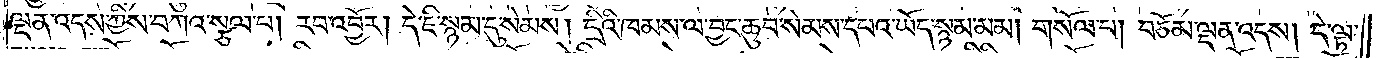ལྡན་འདས་ཀྱིས་བཀའ་སྩལ་པ། རབ་འབྱོར། དེ་ཇི་སྙམ་དུ་སེམས། དྲིའི་ཁམས་ལ་བྱང་ཆུབ་སེམས་དཔའ་ཡོད་སྙམ་མམ། གསོལ་པ། བཅོམ་ལྡན་འདས། དེ་ལྟ་
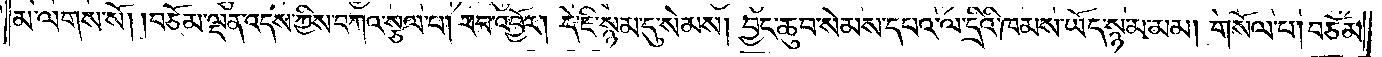མ་ལགས་སོ། །བཅོམ་ལྡན་འདས་ཀྱིས་བཀའ་སྩལ་པ། རབ་འབྱོར། དེ་ཇི་སྙམ་དུ་སེམས། བྱང་ཆུབ་སེམས་དཔའ་ལ་དྲིའི་ཁམས་ཡོད་སྙམ་མམ། གསོལ་པ། བཅོམ་
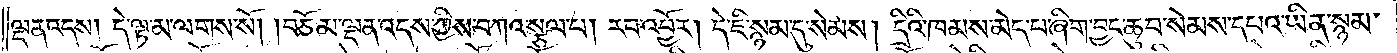ལྡན་འདས། དེ་ལྟ་མ་ལགས་སོ། །བཅོམ་ལྡན་འདས་ཀྱིས་བཀའ་སྩལ་པ། རབ་འབྱོར། དེ་ཇི་སྙམ་དུ་སེམས། དྲིའི་ཁམས་མེད་པ་ཞིག་བྱང་ཆུབ་སེམས་དཔའ་ཡིན་སྙམ་
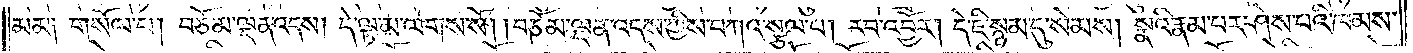མམ༑ གསོལ་པ། བཅོམ་ལྡན་འདས། དེ་ལྟ་མ་ལགས་སོ། །བཅོམ་ལྡན་འདས་ཀྱིས་བཀའ་སྩལ་པ། རབ་འབྱོར། དེ་ཇི་སྙམ་དུ་སེམས། སྣའི་རྣམ་པར་ཤེས་པའི་ཁམས་
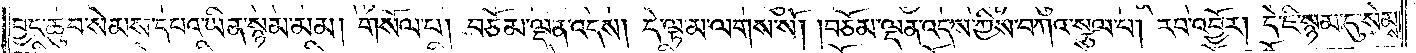བྱང་ཆུབ་སེམས་དཔའ་ཡིན་སྙམ་མམ། གསོལ་པ། བཅོམ་ལྡན་འདས། དེ་ལྟ་མ་ལགས་སོ། །བཅོམ་ལྡན་འདས་ཀྱིས་བཀའ་སྩལ་པ། རབ་འབྱོར། དེ་ཇི་སྙམ་དུ་སེམས་
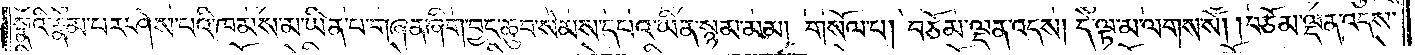སྣའི་རྣམ་པར་ཤེས་པའི་ཁམས་མ་ཡིན་པ་གཞན་ཞིག་བྱང་ཆུབ་སེམས་དཔའ་ཡིན་སྙམ་མམ། གསོལ་པ། བཅོམ་ལྡན་འདས། དེ་ལྟ་མ་ལགས་སོ། །བཅོམ་ལྡན་འདས་
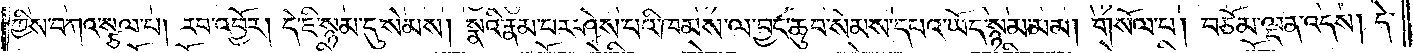ཀྱིས་བཀའ་སྩལ་པ། རབ་འབྱོར། དེ་ཇི་སྙམ་དུ་སེམས། སྣའི་རྣམ་པར་ཤེས་པའི་ཁམས་ལ་བྱང་ཆུབ་སེམས་དཔའ་ཡོད་སྙམ་མམ། གསོལ་པ། བཅོམ་ལྡན་འདས། དེ་
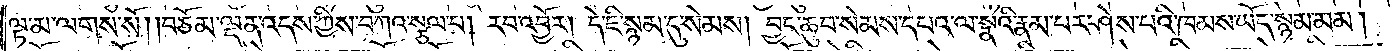ལྟ་མ་ལགས་སོ། །བཅོམ་ལྡན་འདས་ཀྱིས་བཀའ་སྩལ་པ། རབ་འབྱོར། དེ་ཇི་སྙམ་དུ་སེམས། བྱང་ཆུབ་སེམས་དཔའ་ལ་སྣའི་རྣམ་པར་ཤེས་པའི་ཁམས་ཡོད་སྙམ་མམ།
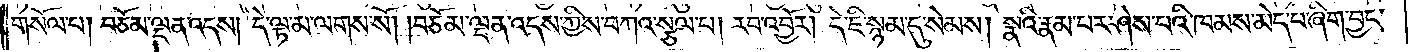གསོལ་པ། བཅོམ་ལྡན་འདས། དེ་ལྟ་མ་ལགས་སོ། །བཅོམ་ལྡན་འདས་ཀྱིས་བཀའ་སྩལ་པ། རབ་འབྱོར། དེ་ཇི་སྙམ་དུ་སེམས། སྣའི་རྣམ་པར་ཤེས་པའི་ཁམས་མེད་པ་ཞིག་བྱང་
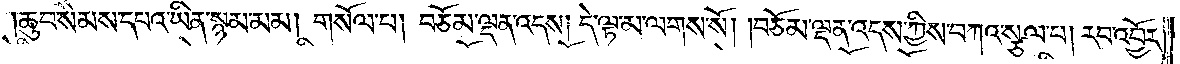ཆུབ་སེམས་དཔའ་ཡིན་སྙམ་མམ། གསོལ་པ། བཅོམ་ལྡན་འདས། དེ་ལྟ་མ་ལགས་སོ། །བཅོམ་ལྡན་འདས་ཀྱིས་བཀའ་སྩལ་པ། རབ་འབྱོར་
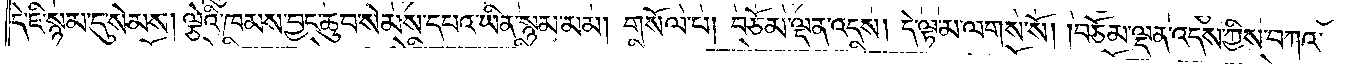དེ་ཇི་སྙམ་དུ་སེམས། ལྕེའི་ཁམས་བྱང་ཆུབ་སེམས་དཔའ་ཡིན་སྙམ་མམ། གསོལ་པ། བཅོམ་ལྡན་འདས། དེ་ལྟ་མ་ལགས་སོ། །བཅོམ་ལྡན་འདས་ཀྱིས་བཀའ་
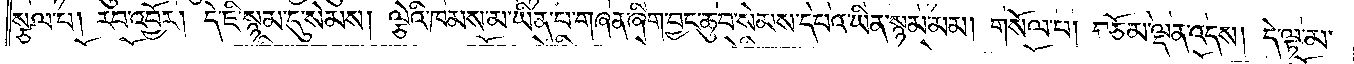སྩལ་པ། རབ་འབྱོར། དེ་ཇི་སྙམ་དུ་སེམས། ལྕེའི་ཁམས་མ་ཡིན་པ་གཞན་ཞིག་བྱང་ཆུབ་སེམས་དཔའ་ཡིན་སྙམ་མམ། གསོལ་པ། བཅོམ་ལྡན་འདས། དེ་ལྟ་མ་
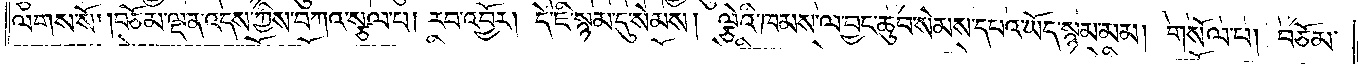ལགས་སོ། །བཅོམ་ལྡན་འདས་ཀྱིས་བཀའ་སྩལ་པ། རབ་འབྱོར། དེ་ཇི་སྙམ་དུ་སེམས། ལྕེའི་ཁམས་ལ་བྱང་ཆུབ་སེམས་དཔའ་ཡོད་སྙམ་མམ། གསོལ་པ། བཅོམ་
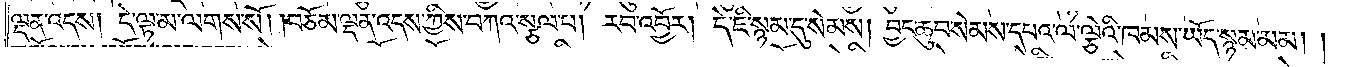ལྡན་འདས། དེ་ལྟ་མ་ལགས་སོ། །བཅོམ་ལྡན་འདས་ཀྱིས་བཀའ་སྩལ་པ། རབ་འབྱོར། དེ་ཇི་སྙམ་དུ་སེམས། བྱང་ཆུབ་སེམས་དཔའ་ལ་ལྕེའི་ཁམས་ཡོད་སྙམ་མམ། །
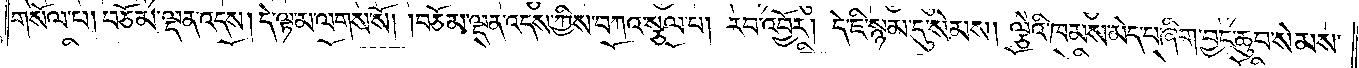གསོལ་པ། བཅོམ་ལྡན་འདས། དེ་ལྟ་མ་ལགས་སོ། །བཅོམ་ལྡན་འདས་ཀྱིས་བཀའ་སྩལ་པ། རབ་འབྱོར། དེ་ཇི་སྙམ་དུ་སེམས། ལྕེའི་ཁམས་མེད་པ་ཞིག་བྱང་ཆུབ་སེམས་
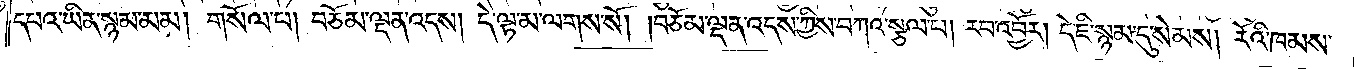དཔའ་ཡིན་སྙམ་མམ། གསོལ་པ། བཅོམ་ལྡན་འདས། དེ་ལྟ་མ་ལགས་སོ། །བཅོམ་ལྡན་འདས་ཀྱིས་བཀའ་སྩལ་པ། རབ་འབྱོར། དེ་ཇི་སྙམ་དུ་སེམས། རོའི་ཁམས་
